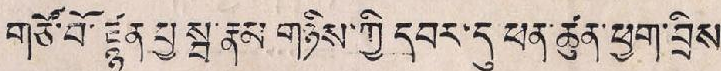གཙོ་བོ་ཛྙན པྱ སྦ་རྣམ་གཉིས་ཀྱི་དབར་དུ ཕན་ཚུན་ཕྱག་བྲིས་
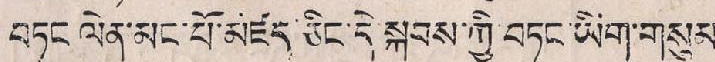བཏང་ལེན་མང་པོ་མཛད་ཅིང་དེ་སྐབས་ཀྱི་བཏང་ཡིག་གསུམ་
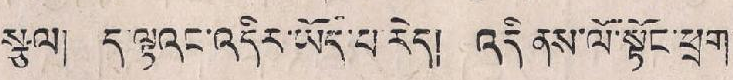སྩལ། ད་ལྟའང་འདིར་ཡོད་པ་རེད། འདི་ནས་ལོ་སྟོང་ཕྲག་
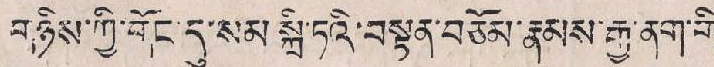གཉིས་ཀྱི་གོང་དུ་སམ་སྐྲི་ཏའི་བསྟན་བཅོས་རྣམས་རྒྱ་ནག་གི་
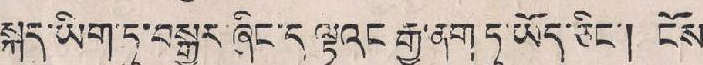སྐད་ཡིག་ཏུ་བསྒྱུར་ཞིང་ད་ལྟའང་རྒྱ་ནག་ཏུ་ཡོད་ཅིང་། ངོས་
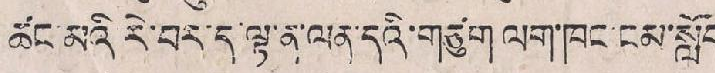ཚང་མའི་རེ་བར་ད་ལྟ་ན་ལན་དའི་གཙུག་ལག་ཁང་ངམ་སློབ་
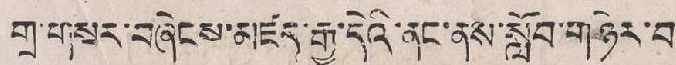གྲྭ་གསར་བཞེངས་མཛད་རྒྱུ་དེའི་ནང་ནས་སློབ་གཉེར་བ་
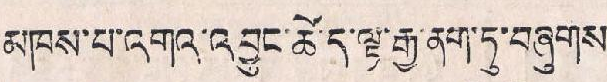མཁས་པ་འགའ་འབྱུང་ཚེ་ད་ལྟ་རྒྱ་ནག་ཏུ་བཞུགས་
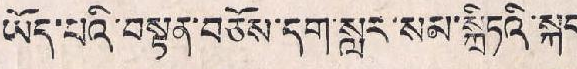ཡོད་པའི་བསྟན་བཅོས་དག་སླར་སམ་སྐྲིཏའི་སྐད་
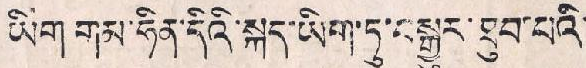ཡིག གམ་ཧིན་དིའི་སྐད་ཡིག་ཏུ་བསྒྱུར་ཐུབ་པའི་
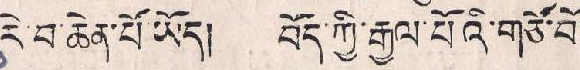རེ་བ་ཆེན་པོ་ཡོད། བོད་ཀྱི་རྒྱལ་པོའི་གཙོ་བོ་
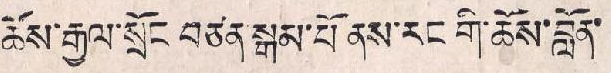ཆོས་རྒྱལ་སྲོང བཙན་སྒམ་པོ་ནས་རང་གི་ཆོས་བློན་
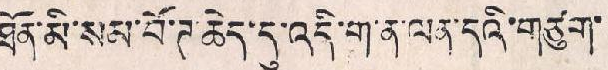ཐོན་མི་སམ་བོ་ཊ་ཆེད་དུ་འདི་ག་ན་ལན་དའི་གཙུག་
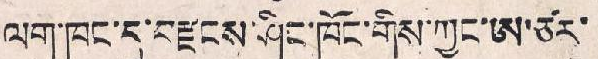ལག་ཁང་དུ་བརྫངས་ཤིང་ཁོང་གིས་ཀྱང་ཨ་ཙརྱ་
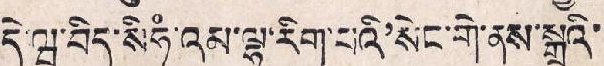དེ་ཝ་བིད་སིཧཾཾ་འམ་ལྷ་རིག་པའི'སེང་གེ་ནས་སྒྲའི་
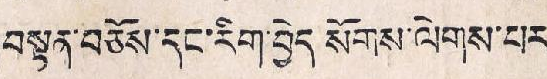།བསྟན་བཅོས་དང་རིག་བྱེད སོགས་ལེགས་པར་
